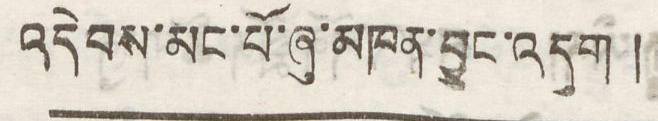འདེབས་མང་པོ་ཞུ་མཁན་བྱུང་འདུག །
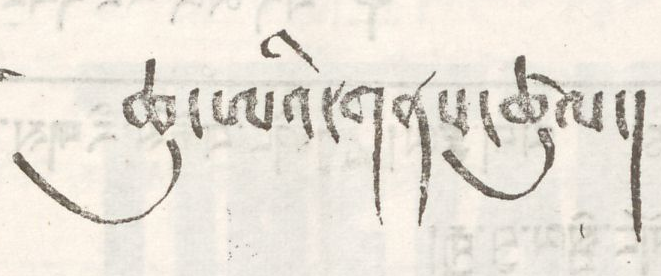ཆུ་ཨའི་གནས་ཚུལ།
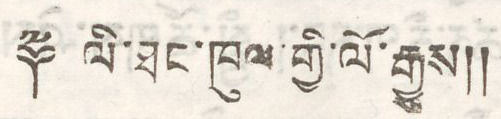༈ ལི་ཐང་ཁུལ་གྱི་ལོ་རྒྱུས།།
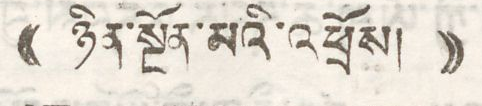(( ཉིན་སྔོན་མའི་འཕྲོས། ))
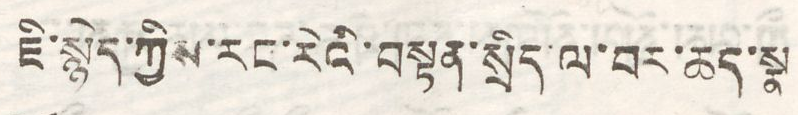ཇི་སྙེད་ཀྱིས་རང་རེའི་བསྟན་སྲིད་ལ་བར་ཆད་སྣ
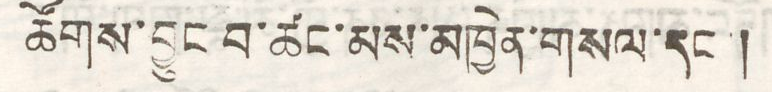ཚོགས་བྱུང་བ་ཚང་མས་མཁྱེན་གསལ་དང་།
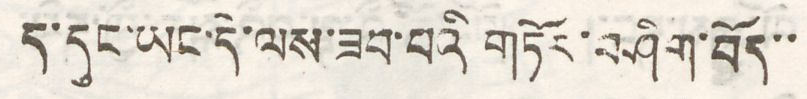ད་དུང་ཡང་དེ་ལས་ཟབ་པའི གཏོར་བཤིག་བོད་་
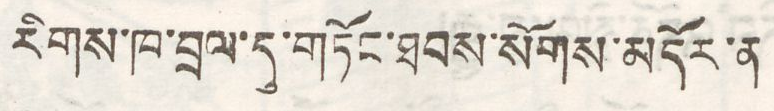རིགས་ཁ་བྲལ་དུ་གཏོང་ཐབས་སོགས་མདོར་ན
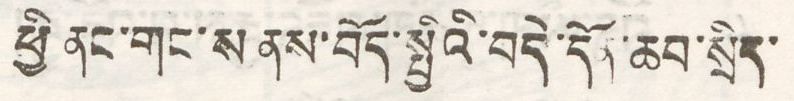ཕྱི ནང་གང་ས་ནས་བོད་སྤྱིའི་བདེ་དོན་ཆབ་སྲིད་
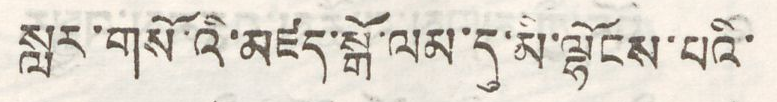སླར་གསོའི་འཛད་སྒོ་ལམ་དུ་མི་ལྷོངས་པའི་
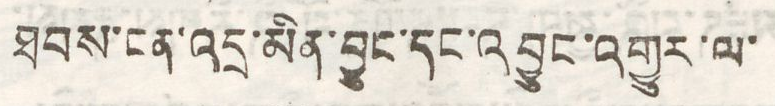ཐབས་ངན་འདྲ་མིན་བྱུང་དང་འབྱུང་འགྱུར་ལ་
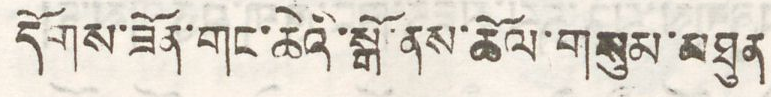དོགས་ཟོན་གང་ཆེའི་སྒོ་ནས་ཆོལ་གསུམ་མཐུན
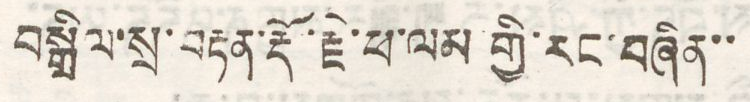བསྒྲིལ་སྲ་བརྟན་རྡོ་རྗེ་ཕ་ལམ གྱི་རྣག་བཞིན་་
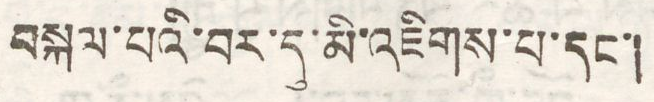བསྐལ་པའི་བར་དུ་མི་འཇིགས་པ་དང་།
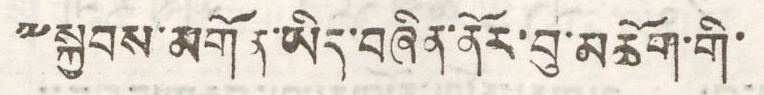༸སྐྱབས་མགོན་ཡིད་བཞིན་ནོར་བུ་མཆོག་གི་
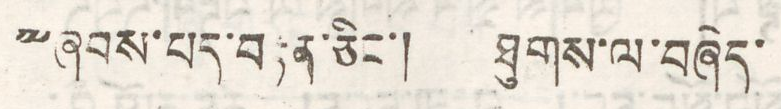༸ཞབས་པད་བརྟན་ཅིང་། ཐུགས་ལ་བཞེད་
